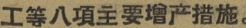工等八項主要增产措施。
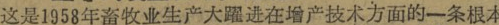这是1958年畜牧业生产大躍进在增产技术方面的一条根本
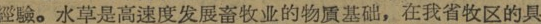經驗。水草是高速度发展畜牧业的物貭基础，在我省牧区的具
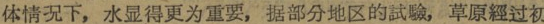体情况下，水显得更为重要，据部分地区的試驗，草原經过初
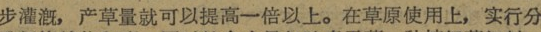步灌漑，产草量就可以提高一倍以上。在草原使用上，实行分
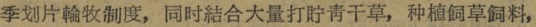季划片輪牧制度，同时結合大量打貯靑干草，种植飼草飼料，
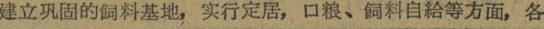简历巩固的飼料基地，实行定居，口粮、飼料自給等方面，各
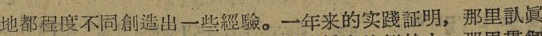地都程度不同創造出一些經驗。一年来的实踐証明，那里认眞
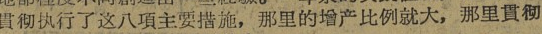貫彻执行了这八項主要措施，那里的增产比例就大，那里貫彻
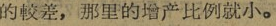的較差，那里的增产比例就小。
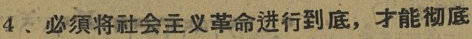4、必須将社会主义革命进行到底，才能彻底
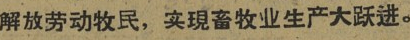解放劳动牧民，实現畜牧业生产大跃进。
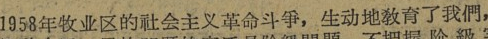1958年牧业区的社会主义革命斗爭，生动地敎育了我們，
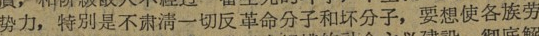势力，特别是不肃清一切反革命分子和坏分子，要想使各族劳
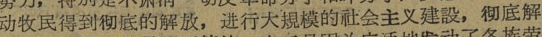动牧民得到彻底的解放，进行大規模的社会主义建設，彻底解
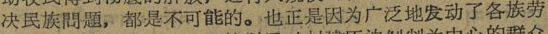决民族問題，都是不可能的。也正是因为广泛地发动了各族劳
